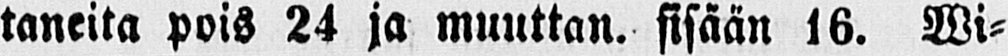taneita pois 24 ja muuttan. sisään 16. Wi-
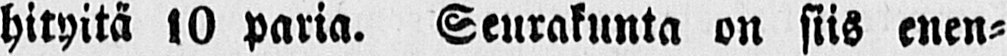hityitä 10 paria. Seurakunta on siis enen-
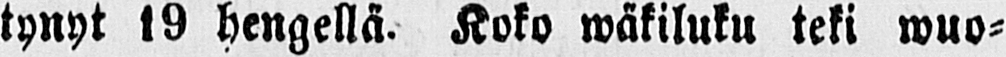tynyt 19 hengellä. Koko wäkiluku teki wuo-
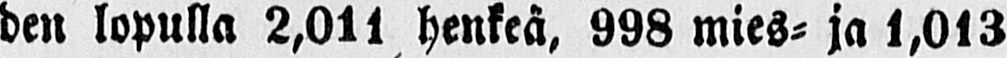den lopulla 2,011 henkeä, 998 mies- ja 1,013
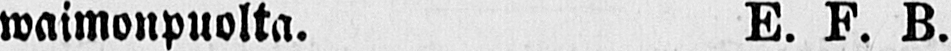waimonpuolta. E. F. B.
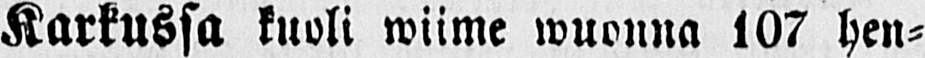Karkussa kuoli wiime wuonna 107 hen-
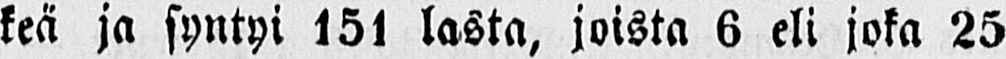keä ja syntyi 151 lasta, joista 6 eli joka 25
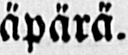äpärä.
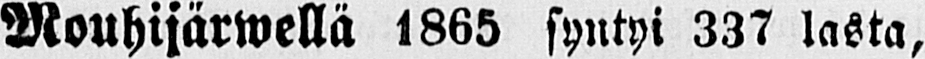Mouhijärwellä 1865 syntyi 337 lasta,
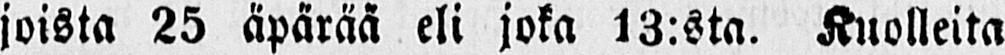joista 25 äpärää eli joka 13:sta. Kuolleita
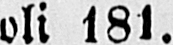oli 181.
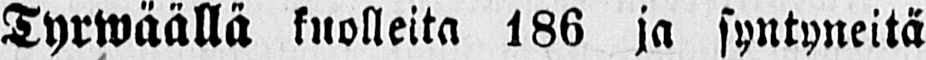Tyrwäällä kuolleita 186 ja syntyneitä
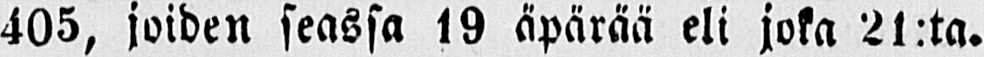405, joiden seassa 19 äpärää eli joka 21:ta.
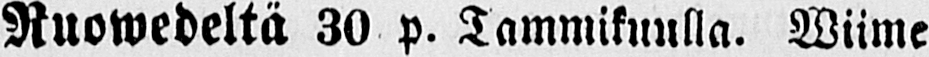Ruowedeltä 30 p. Tammikuulla. Wiime
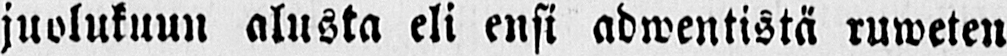juolukuun alusta eli ensi adwentistä ruweten
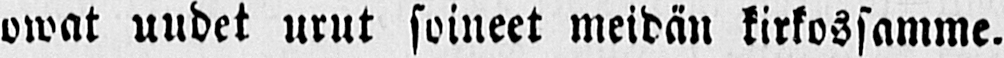owat uudet urut soineet meidän kirkossamme.
